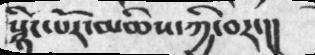སྙིང་པོར་མཆིས་ཀྱི་བར་།།
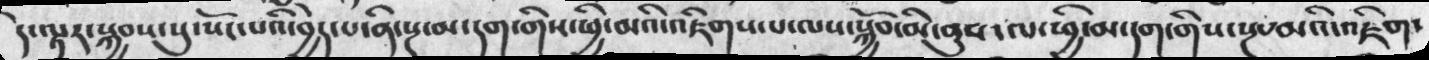དེ་ལྟར་སྐྱབས་སུ་སོང་པའི་བྱེད་པ་ནི་སྔ་མ་དག་གིས་ཕྱི་མའི་འཇིགས་པ་ལས་སྐྱོབ་མི་ནུས་ལ་ཕྱི་མ་དག་གིས་སྔ་མའི་འཇིག་
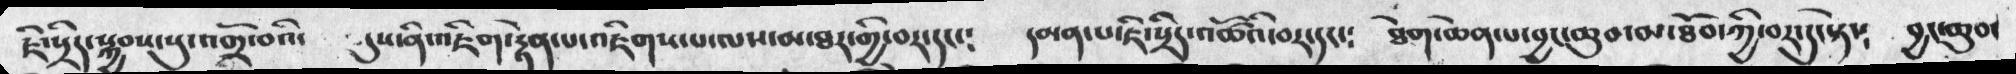ཇི་སྲིད་སྐྱབས་སུ་འགྲོ་བའི་   དུས་ནི་འཇིག་རྟེན་པ་འཇིགས་པ་ལས་མ་ཐར་གྱི་བར་དང༴   དམན་པ་ཇི་སྲིད་འཚོའི་བར་དང༴   ཐེག་ཆེན་པ་བྱང་ཆུབ་མ་ཐོབ་ཀྱི་བར་དུ་སྟེ་།    བྱང་ཆུབ་
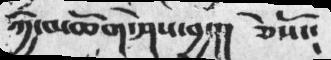ཀྱེ་མཆོག་ཤེས་བྱ་།།  ཅེསོ་༴
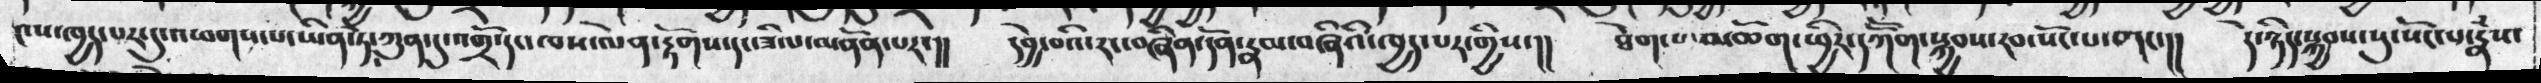༤པ་ཁྱད་པར་དུ་འཕགས་པ་ཡིན་ཏེ་ཀུན་དུ་འགྲོ་དང་ལས་ལེན་རྟོགས་དང་ཟིལ་མནོན་པར་།།   དབྱེ་བའི་རང་བཞིན་དོན་རྣམ་བཞིའི་ཁྱད་པར་གྱིས་།།  ཐེག་པ་མཆོག་ཕྱིར་དཀོོག་སྐྱབས་རབ་སོང་པ་གང་།།  དེ་ཉིད་སྐྱབས་སུ་སོང་པ་རྣཾས་
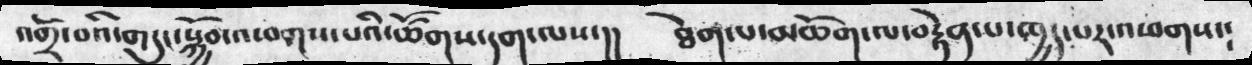འགྲོ་བའི་གདུང་སྐྱོབ་འཕགས་པའི་ཚོགས་དག་ལས་།།   ཐེག་པ་མཆོག་ལ་བརྟེན་པ་ཁྱད་པར་འཕགས་༴
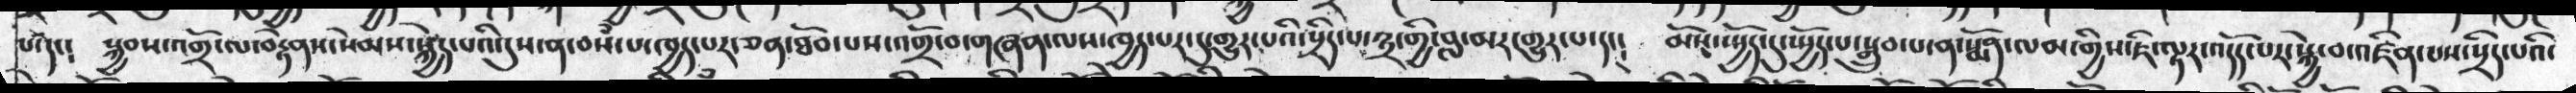པ་དང༴  སྐྱབས་འགྲོ་ལ་བརྟེནས་སེམས་སྐྱེད་པའི་དུས་ན་བསཾ་པ་ཁྱད་པར་ཅན་ཐོབ་པས་འགྲོ་བ་གཞན་ལས་ཁྱད་པར་དུ་གྱུར་པའི་སྲིད་པ་༣་གྱི་བླ་མར་གྱུར་པ་དང༴  མོས་སྤྱོད་དུ་སྤྱོད་པ་སྒྲུབ་པ་ན་སྨོན་ལམ་གྱིས་ཇི་ལྟར་འདོད་པར་སྐྱེ་བ་འཛིན་པས་སྲིད་པའི་
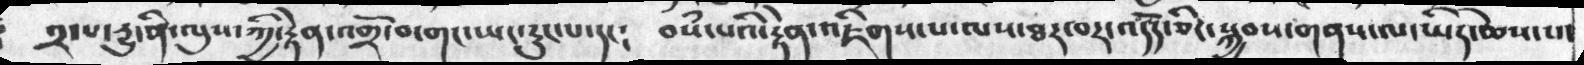༢་པ་རྱུ་ནི་ལུས་ཀྱི་རྟེན་འགྲོ་བ་གང་ཡང་རུང་པ་དང༴  བསཾ་པའི་རྟེན་འཇིགས་པ་ལས་ཐར་བར་འདོད་ཅིང་སྐྱབས་གནས་ལ་ཡིད་ཆེས་པ་
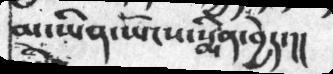མ་ཡིན་ཡོངས་སྨིན་བྱེད་།།
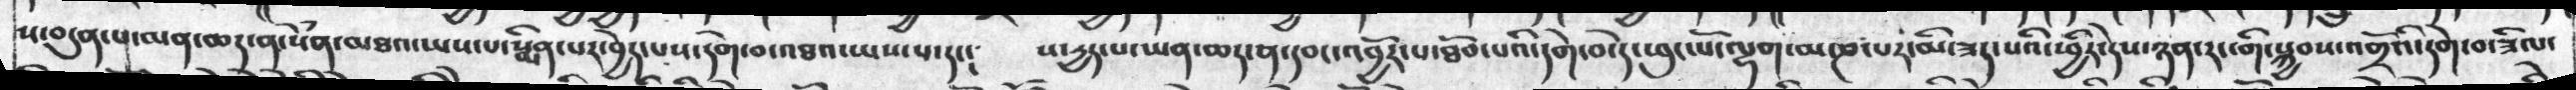ས་བདུན་པ་མན་ཆད་ན་སེཾན་མཐའ་ཡས་པ་སྨིན་པར་བྱེད་པས་དགེ་བ་འཐའ་ཡས་པ་དང༴  ས་དྱད་པ་ཡན་ཆད་ན་དབང་འབྱོར་པ་ཐོབ་པའི་དགེ་བ་དེ་ཕུང་པོ་ལྷག་མ་ཎ་པར་མི་ཟད་པའི་ཕྱིར་དེས་ཉན་རང་གི་སྐྱབས་འགྲོའི་དགེ་བ་ཟིལ་
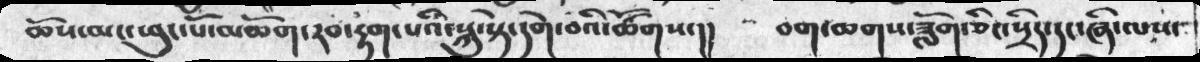ཆོས་མང་ཕུང་པོ་མཆོག་རབ་རྟག་པའི་སྐུ་སྟེ་དགེ་བའི་ཚོགས་།།  བག་ཆགས་ཟློག་ཅིང་སྲིད་དང་ཞི་ལས་
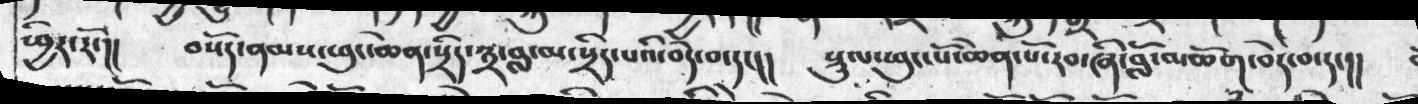ཕྱིར་རོ་།།  བསོད་ནམས་ཕུང་ཆེན་སྲིད་༣་བླ་མ་སྲིད་པའི་བདེ་བ་དང།།  སྡུལ་ཕུང་པོ་ཆེན་པོ་རབ་ཞི་བློ་མཆོག་བདེ་བ་དང།།
